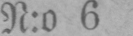N:o 6
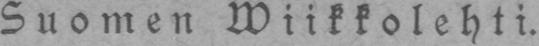Suomen wiikkolehti.
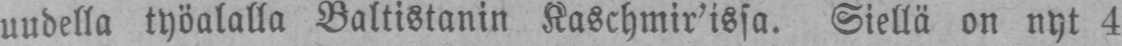uudella työalalla Baltistanin Kaschmir'issa. Siellä on nyt 4
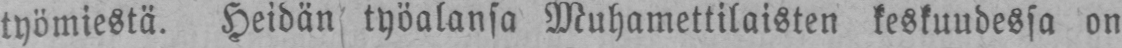työmiestä. Heidän, työalansa Muhamettilaisten keskuudessa on
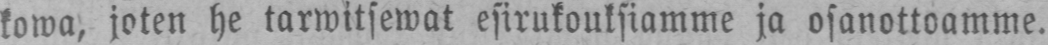kowa, joten he tarwitsewat esirukouksiamme ja osanottoamme.
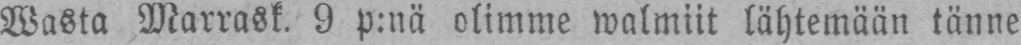Wasta Marrask. 9 p:nä olimme walmiit lähtemään tänne
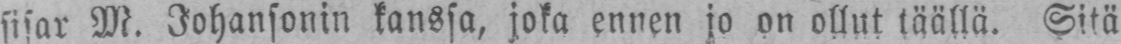sisar M. Johansonin kanssa, joka ennen jo on ollut täällä. Sitä
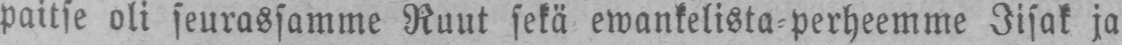paitse oli seurassamme Ruut sekä ewankelista-perheemme Iisak ja
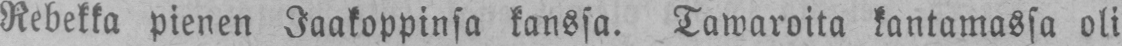Rebekka pienen Jaakoppinsa kanssa. Tawaroita kantamassa oli
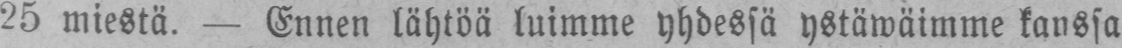25 miestä. — Ennen lähtöä luimme yhdessä ystäwäimme kanssa
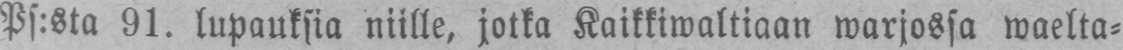Ps:sta 91. lupauksia niille, jotka Kaikkiwaltiaan warjossa waelta-
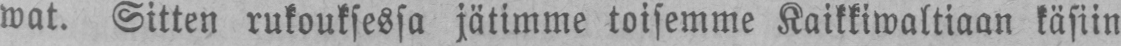wat. Sitten rukouksessa jätimme toisemme Kaikkiwaltiaan käsiin
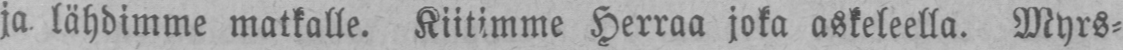ja lähdimme matkalle. Kiitimme Herraa joka askeleella. Myrs-
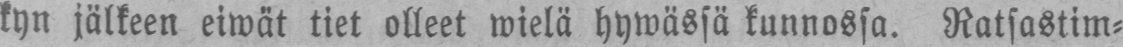kyn jälkeen eiwät tiet olleet wielä hywässä kunnossa. Ratsastim-
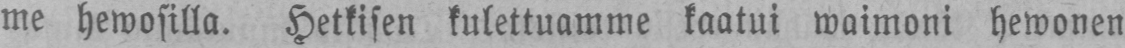me hewosilla. Hetkisen kulettuamme kaatui waimoni hewonen
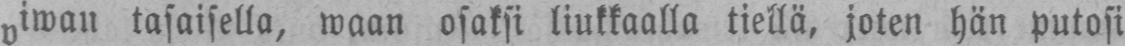iwan tasaisella, waan osaksi liukkaalla tiellä, joten hän putosi
